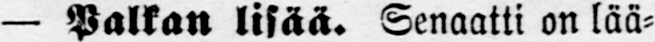— Palkan lisää. Senaatti on lää-
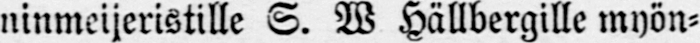ninmeijeristille S. W Hällbergille myön-
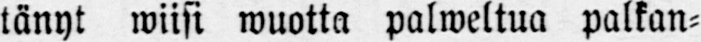länyt wiisi wuotta palweltua palkan-
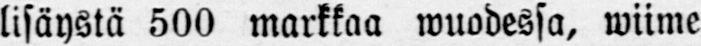lisäystä 500 markkaa wuodessa, wiime
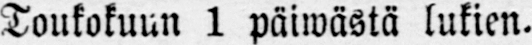Toukokuun 1 päiwästä lukien.
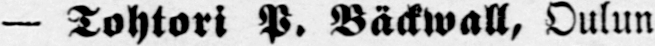— Tohtori P. Bäckwall, Oulun
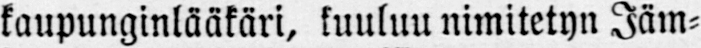kaupunginlääkäri, kuuluu nimitetyn Jäm-
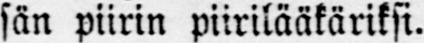sän piirin piirilääkäriksi.
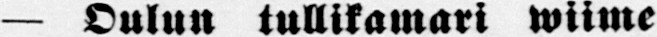— Oulun tullikamari wiime
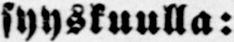syyskuulla:
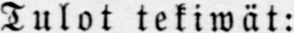Tulot tekiwät:
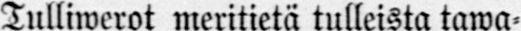Tulliwerot meritietä tulleista tawa-
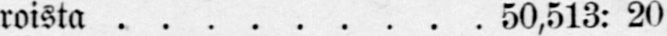roista 50,513: 20
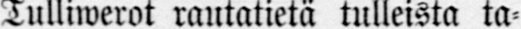Tulliwerot rautatietä tulleista ta-
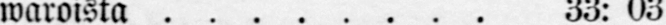waroista 33: 03
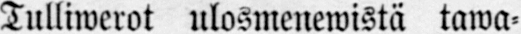Tulliwerot ulosmenewistä tawa-
